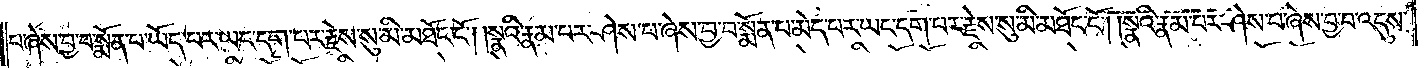པ་ཞེས་བྱ་བ་སྨོན་པ་ཡོད་པར་ཡང་དག་པར་རྗེས་སུ་མི་མཐོང་ངོ༌། །སྣའི་རྣམ་པར་ཤེས་པ་ཞེས་བྱ་བ་སྨོན་པ་མེད་པར་ཡང་དག་པར་རྗེས་སུ་མི་མཐོང་ངོ༌། །སྣའི་རྣམ་པར་ཤེས་པ་ཞེས་བྱ་བ་འདུས་
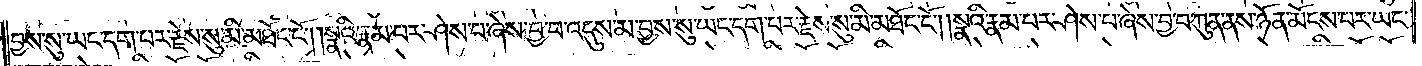བྱས་སུ་ཡང་དག་པར་རྗེས་སུ་མི་མཐོང་ངོ༌། །སྣའི་རྣམ་པར་ཤེས་པ་ཞེས་བྱ་བ་འདུས་མ་བྱས་སུ་ཡང་དག་པར་རྗེས་སུ་མི་མཐོང་ངོ༌། །སྣའི་རྣམ་པར་ཤེས་པ་ཞེས་བྱ་བ་ཀུན་ནས་ཉོན་མོངས་པར་ཡང་
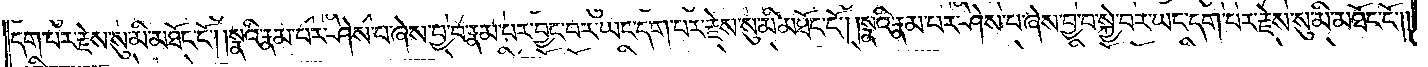དག་པར་རྗེས་སུ་མི་མཐོང་ངོ༌། །སྣའི་རྣམ་པར་ཤེས་པ་ཞེས་བྱ་བ་རྣམ་པར་བྱང་བར་ཡང་དག་པར་རྗེས་སུ་མི་མཐོང་ངོ༌། །སྣའི་རྣམ་པར་ཤེས་པ་ཞེས་བྱ་བ་སྐྱེ་བར་ཡང་དག་པར་རྗེས་སུ་མི་མཐོང་ངོ༌༎
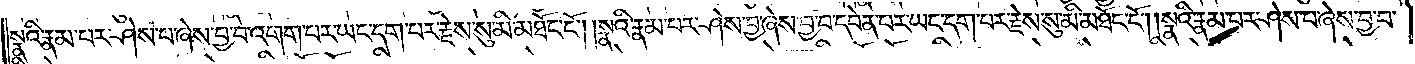སྣའི་རྣམ་པར་ཤེས་པ་ཞེས་བྱ་བ་འགག་པར་ཡང་དག་པར་རྗེས་སུ་མི་མཐོང་ངོ༌། །སྣའི་རྣམ་པར་ཤེས་བྱ་ཞེས་བྱ་བ་དབེན་པར་ཡང་དག་པར་རྗེས་སུ་མི་མཐོང་ངོ༌། །སྣའི་རྣམ་པར་ཤེས་པ་ཞེས་བྱ་བ་
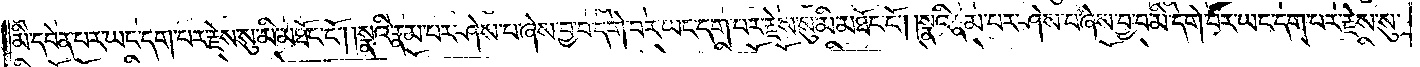མི་དབེན་པར་ཡང་དག་པར་རྗེས་སུ་མི་མཐོང་ངོ༌། །སྣའི་རྣམ་པར་ཤེས་པ་ཞེས་བྱ་བ་དགེ་བར་ཡང་དག་པར་རྗེས་སུ་མི་མཐོང་ངོ༌། །སྣའི་རྣམ་པར་ཤེས་པ་ཞེས་བྱ་བ་མི་དགེ་བར་ཡང་དག་པར་རྗེས་སུ་
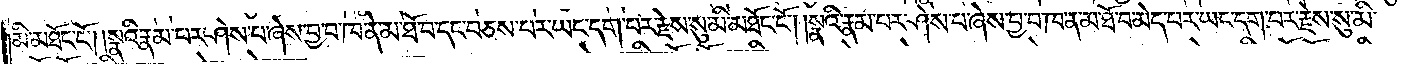མི་མཐོང་ངོ༌། །སྣའི་རྣམ་པར་ཤེས་པ་ཞེས་བྱ་བ་ཁ་ན་མ་ཐོ་བ་དང་བཅས་པར་ཡང་དག་པར་རྗེས་སུ་མི་མཐོང་ངོ༌། །སྣའི་རྣམ་པར་ཤེས་པ་ཞེས་བྱ་བ་ཁ་ན་མ་ཐོ་བ་མེད་པར་ཡང་དག་པར་རྗེས་སུ་མི་
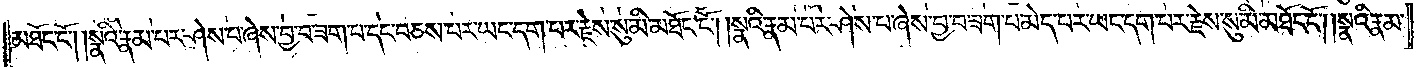མཐོང་ངོ༌། །སྣའི་རྣམ་པར་ཤེས་པ་ཞེས་བྱ་བ་ཟག་པ་དང་བཅས་པར་ཡང་དག་པར་རྗེས་སུ་མི་མཐོང་ངོ༌། །སྣའི་རྣམ་པར་ཤེས་པ་ཞེས་བྱ་བ་ཟག་པ་མེད་པར་ཡང་དག་པར་རྗེས་སུ་མི་མཐོང་ངོ༌། །སྣའི་རྣམ་
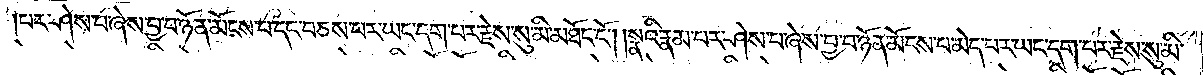པར་ཤེས་བ་ཞེས་བྱ་བ་ཉོན་མོངས་པ་དང་བཅས་པར་ཡང་དག་པར་རྗེས་སུ་མི་མཐོང་ངོ༌། །སྣའི་རྣམ་པར་ཤེས་པ་ཞེས་བྱ་བ་ཉོན་མོངས་པ་མེད་པར་ཡང་དག་པར་རྗེས་སུ་མི་
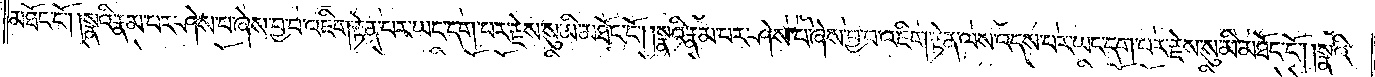མཐོང་ངོ༌། །སྣའི་རྣམ་པར་ཤེས་པ་ཞེས་བྱ་བ་འཇིག་རྟེན་པར་ཡང་དག་པར་རྗེས་སུ་མི་མཐོང་ངོ༌། །སྣའི་རྣམ་པར་ཤེས་པ་ཞེས་བྱ་བ་འཇིག་རྟེན་ལས་འདས་པར་ཡང་དག་པར་རྗེས་སུ་མི་མཐོང་ངོ༌། །སྣའི་
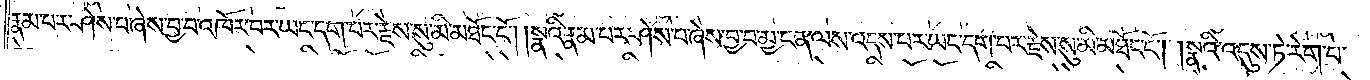རྣམ་པར་ཤེས་པ་ཞེས་བྱ་བ་འཁོར་བར་ཡང་དག་པར་རྗེས་སུ་མི་མཐོང་ངོ༌། །སྣའི་རྣམ་པར་ཤེས་པ་ཞེས་བྱ་བ་མྱ་ངན་ལས་འདས་པར་ཡང་དག་པར་རྗེས་སུ་མི་མཐོང་ངོ༌། །སྣའི་འདུས་ཏེ་རེག་པ་
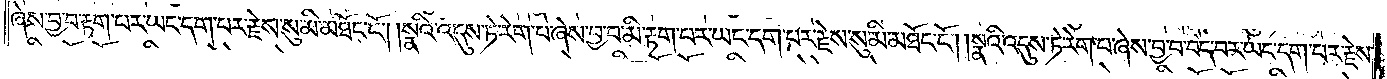ཞེས་བྱ་བ་རྟག་པར་ཡང་དག་པར་རྗེས་སུ་མི་མཐོང་ངོ༌། །སྣའི་འདུས་ཏེ་རེག་པ་ཞེས་བྱ་བ་མི་རྟག་པར་ཡང་དག་པར་རྗེས་སུ་མི་མཐོང་ངོ༌། །སྣའི་འདུས་ཏེ་རེག་པ་ཞེས་བྱ་བ་བདེ་བར་ཡང་དག་པར་རྗེས་
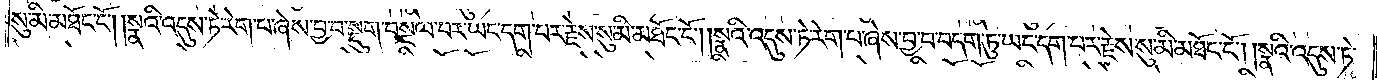སུ་མི་མཐོང་ངོ༌། །སྣའི་འདུས་ཏེ་རེག་པ་ཞེས་བྱ་བ་སྡུག་བསྔལ་བར་ཡང་དག་པར་རྗེས་སུ་མི་མཐོང་ངོ༌། །སྣའི་འདུས་ཏེ་རེག་པ་ཞེས་བྱ་བ་བདག་ཏུ་ཡང་དག་པར་རྗེས་སུ་མི་མཐོང་ངོ༌། །སྣའི་འདུས་ཏེ་
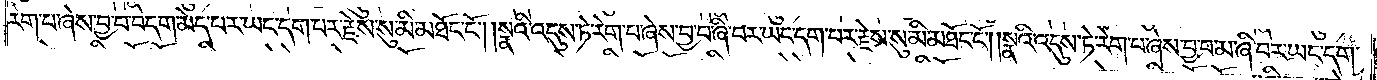རེག་པ་ཞེས་བྱ་བ་བདག་མེད་པར་ཡང་དག་པར་རྗེས་སུ་མི་མཐོང་ངོ༌། །སྣའི་འདུས་ཏེ་རེག་པ་ཞེས་བྱ་བ་ཞི་བར་ཡང་དག་པར་རྗེས་སུ་མི་མཐོང་ངོ༌། །སྣའི་འདུས་ཏེ་རེག་པ་ཞེས་བྱ་བ་མ་ཞི་བར་ཡང་དག་
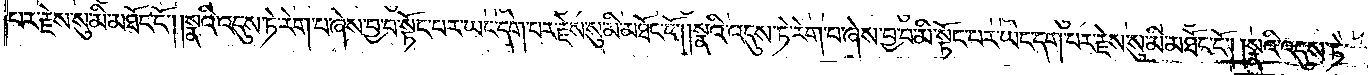པར་རྗེས་སུ་མི་མཐོང་ངོ༌། །སྣའི་འདུས་ཏེ་རེག་པ་ཞེས་བྱ་བ་སྟོང་པར་ཡང་དག་པར་རྗེས་སུ་མི་མཐོང་ངོ༌། །སྣའི་འདུས་ཏེ་རེག་པ་ཞེས་བྱ་བ་མི་སྟོང་པར་ཡང་དག་པར་རྗེས་སུ་མི་མཐོང་ངོ༌། །སྣའི་འདུས་ཏེ་
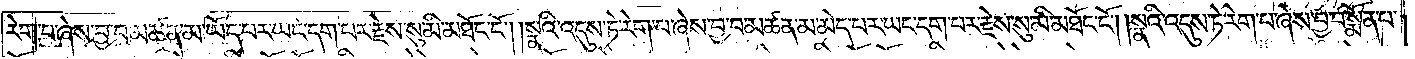རེག་པ་ཞེས་བྱ་བ་མཚན་མ་ཡོད་པར་ཡང་དག་པར་རྗེས་སུ་མི་མཐོང་ངོ༌། །སྣའི་འདུས་ཏེ་རེག་པ་ཞེས་བྱ་བ་མཚན་མ་མེད་པར་ཡང་དག་པར་རྗེས་སུ་མི་མཐོང་ངོ༌། །སྣའི་འདུས་ཏེ་རེག་པ་ཞེས་བྱ་བ་སྨོན་པ་
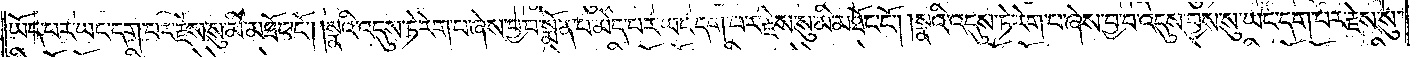ཡོད་པར་ཡང་དག་པར་རྗེས་སུ་མི་མཐོང་ངོ༌། །སྣའི་འདུས་ཏེ་རེག་པ་ཞེས་བྱ་བ་སྨོན་པ་མེད་པར་ཡང་དག་པར་རྗེས་སུ་མི་མཐོང་ངོ༌། །སྣའི་འདུས་ཏེ་རེག་པ་ཞེས་བྱ་བ་འདུས་བྱས་སུ་ཡང་དག་པར་རྗེས་སུ་
